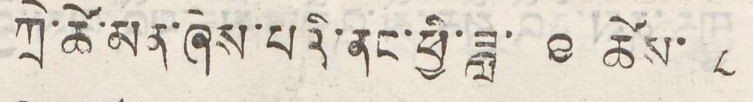ཀྲེ་ཚེ་མན་ཞེས་པའི་ནང་ཕྱི་ཟླ་ ༩ ཚེས་ ༨
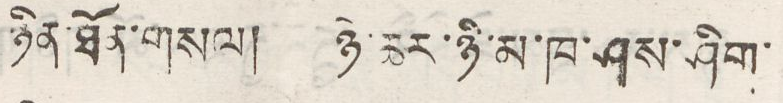ཉིན་ཐོན་གསལ། ཉེ་ཆར་ཉི་མ་ཁ་ཤས་ཤིག་
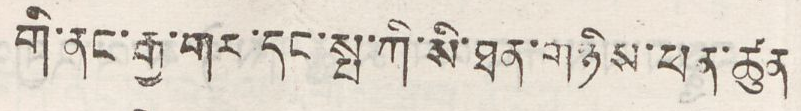གི་ནང་རྒྱ་གར་དང་སྤ་ཀི་ཐན་གཉིས་ཕན་ཚུན་
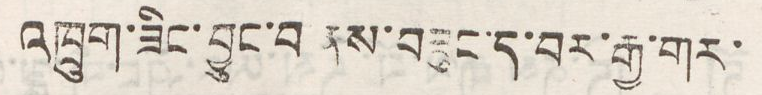འཁྲུག་ཟིང་བྱུང་བ ནས་བཟུང་ད་བར་རྒྱ་གར་
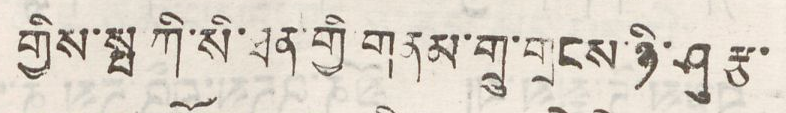གྱིས་སྤ ཀི་སི་ཐན་གྱི གནས་གྲུ་གྲངས་ཉི་ཤུ རྩ་
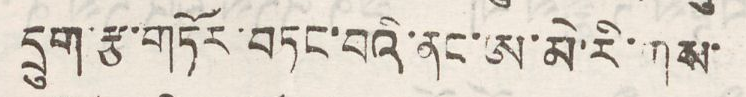དྲུག་རྩ་གཏོར་བཏང་བའི་ནང་ཨ་མེ་རི་ཀས་
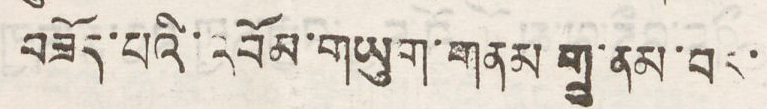བཟོད་པའི་འབོམ་གཡུག་གནམ གྲུ་ནམ་བར་
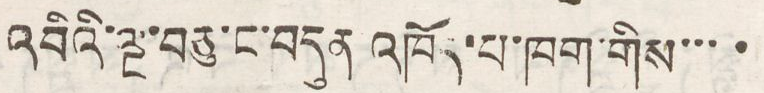འབིའི་ལྔ་བཅུ་ང་བདུན འཁོད་པ་ཁག་གིས་་་་
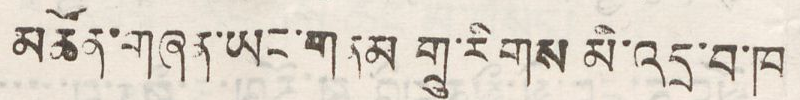མཚོན་གཞན་ཡང་གནམ གྲུ་རིགས མི་འདྲ་བ་ཁ
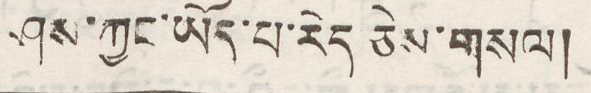ཤས་ཀྱང་ཡོད་པ་རེད ཅེས་གསལ།
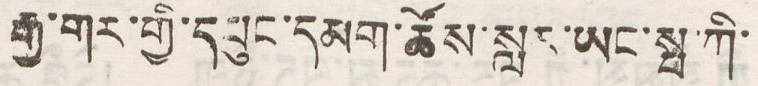རྒྱ་གར་གྱི་དཔུང་དམག་ཚོས་སླར་ཡང་སྤ་ཀི་
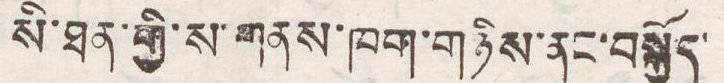སི་ཐན་གྱི་ས་གནས་ཁག་གཉིས་ནང་བསྐྱོད་
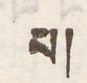པ།
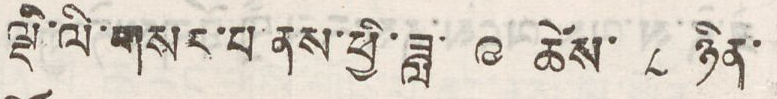ལྡི་ལི་གསར་པ་ནས་ཕྱི་ཟླ་ ༩ ཚེས་ ༨ ཉིན་
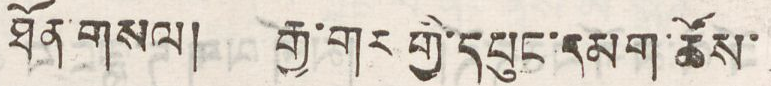ཐོན་གསལ། རྒྱ་གར་གྱི་དཔུང་དམག་ཚོས་
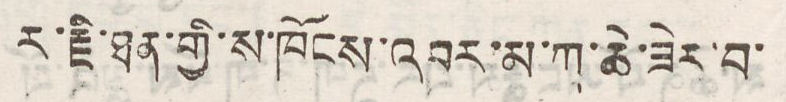ར་རྗི་ཐན་གྱི་ས་ཁོངས་འབར་མ་ཀ་ཆེ་ཟེར་བ་
